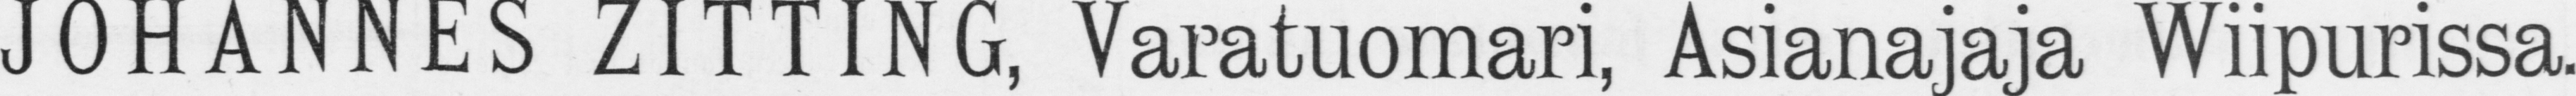JOHANNES ZITTING, Varatuomari, Asianajaja Wiipurissa
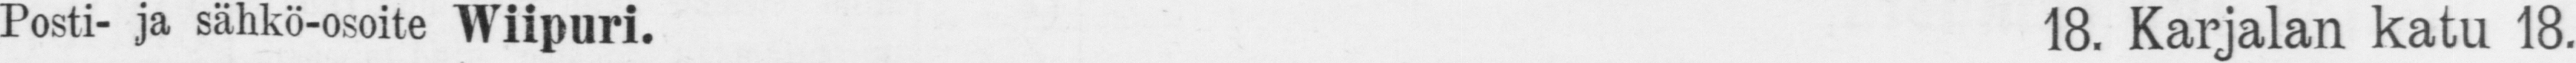Posti- ja sähkö-osoite Wiipuri. 18. Karjalan katu 18.
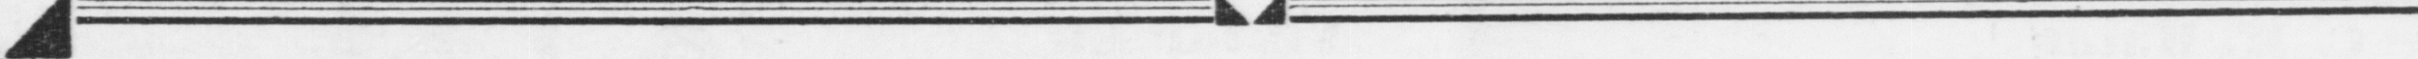Helsingin Asfaltti Osake-yhtiö.
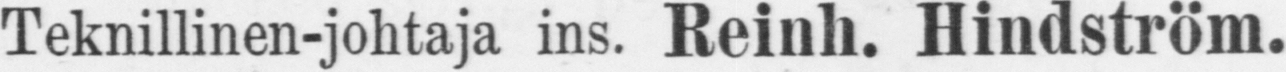Teknillinen-johtaja ins. Reinh. Hindström.
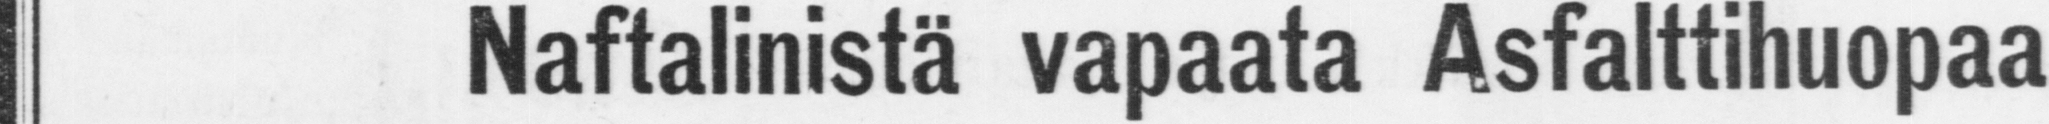Naftalinist ä vapaata Asfattihuopaa
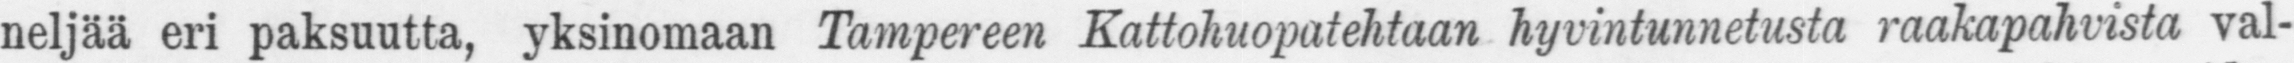neljää eri paksuutta, yksinomaan Tampereen Kattohuopatehtaan hyvintunnetusta raakapahvista val-
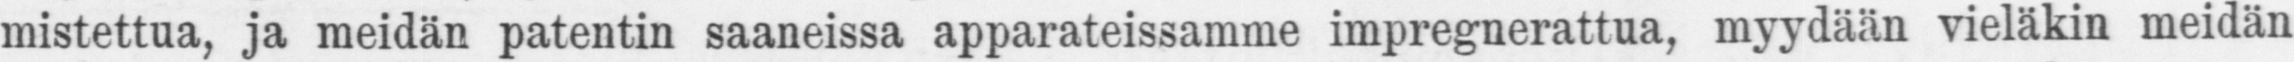mistettua, ja meidän patentin saaneissa apparateissamme impregnerattua, myydään vieläkin meidän
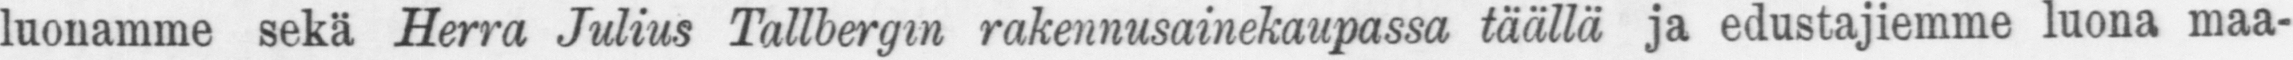luonamme sekä Herra Julius Tallbergin rakennusainekaupassa täällä ja edustajiemme luona maa-
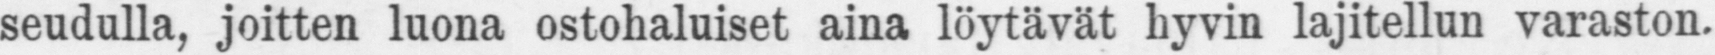seudulla, joitten luona ostohaluiset aina löytävät hyvin lajitellun varaston.
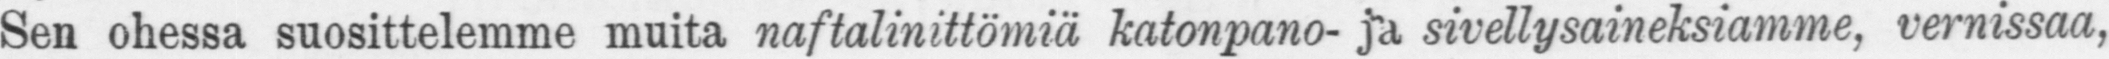Sen ohessa suosittelemme muita, naftalinittömiä katonpano- ja sivellysaineksiamme, vernissaa,
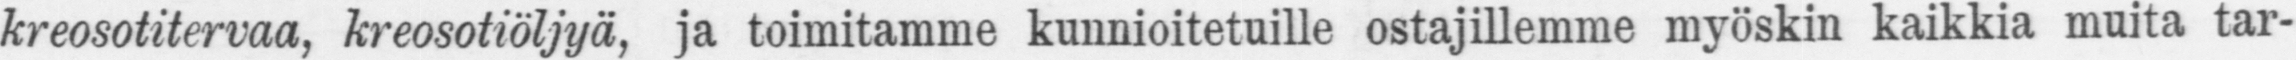kreosotitervaa, kreosotiöljyä, ja toimitamme kunnioitetuille ostajillemme myöskin kaikkia muita tar-
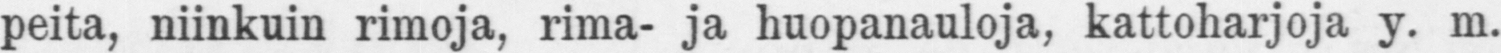peita, niinkuin rimoja, rima- ja huopanauloja, kattoharjoja y. m.
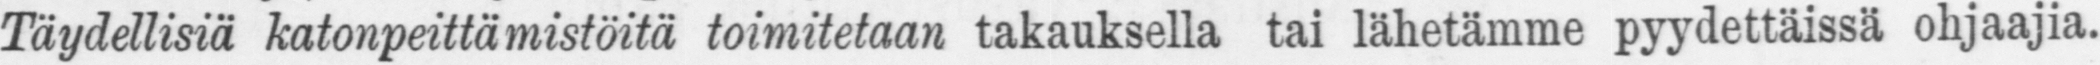Täydellisiä katonpeittämistöitä toimitetaan takauksella tai lähetämme ohjaajia,
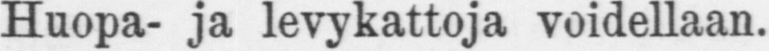Huopa- ja voidellaan.
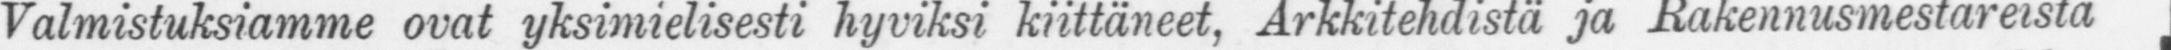Valmistuksiamme ovat yksimielisesti hyviksi kiittäneet, Arkkitehdistä ja Rakennusmestareista
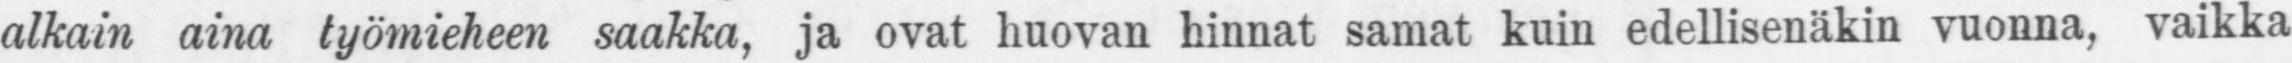alkain aina työmieheen saakka, ja ovat huovan hinnat samat kuin edellisenäkin vuonna, vaikka
